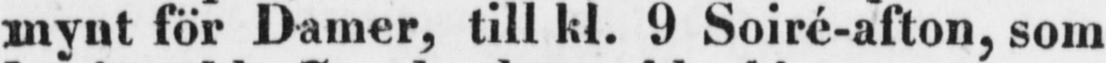mynt för Damer, till kl. 9 Soiré-afton, som
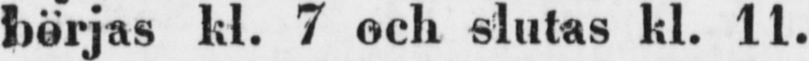börjas kl. 7 och slutas kl. 11.
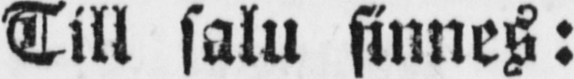Till salu finnes:
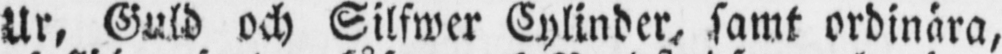Ur, Guld och Silfwer Cylinder, samt ordinära,
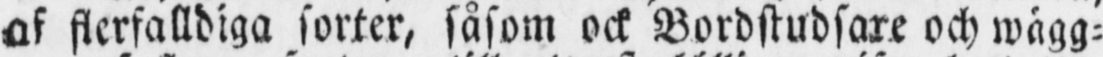af flerfalldiga sorter, såsom ock Bordstudsare och wägg-
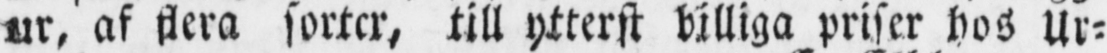ur, af flera sorter, till ytterst billiga priser hos Ur-
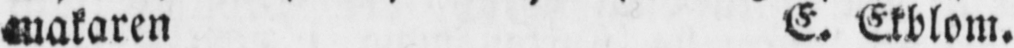makaren E. Ekblom.
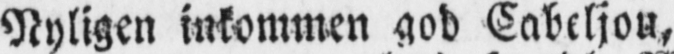Nyligen inkommen god Cabeljou,
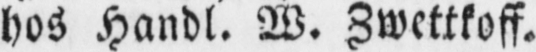hos Handl. W. Zwettkoff.
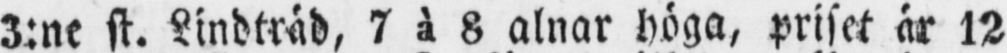3:ne st. Lindträd, 7 à 8 alnar höga, priset är 12
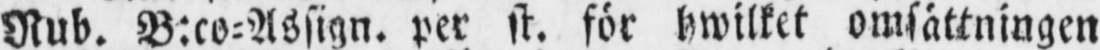Nub. B:co-Assign. per st. för hwilket omsättningen
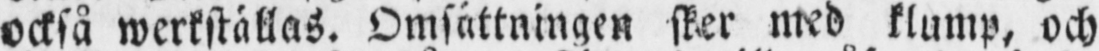också werkställas. Omsättningen sker med klump, och
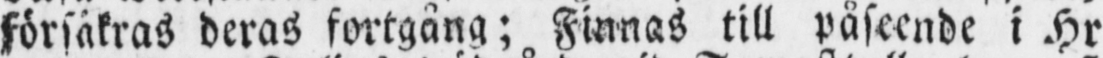försäkras deras fortgång; Finnas till påseende i Hr
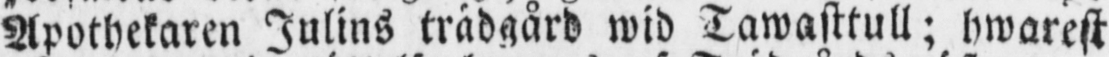Apothekaren Julins trädgård wid Tawasttull; hwarest
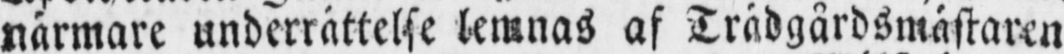närmare underrättelse lemnas af Trädgårdsmästaren
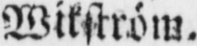Wikström.
